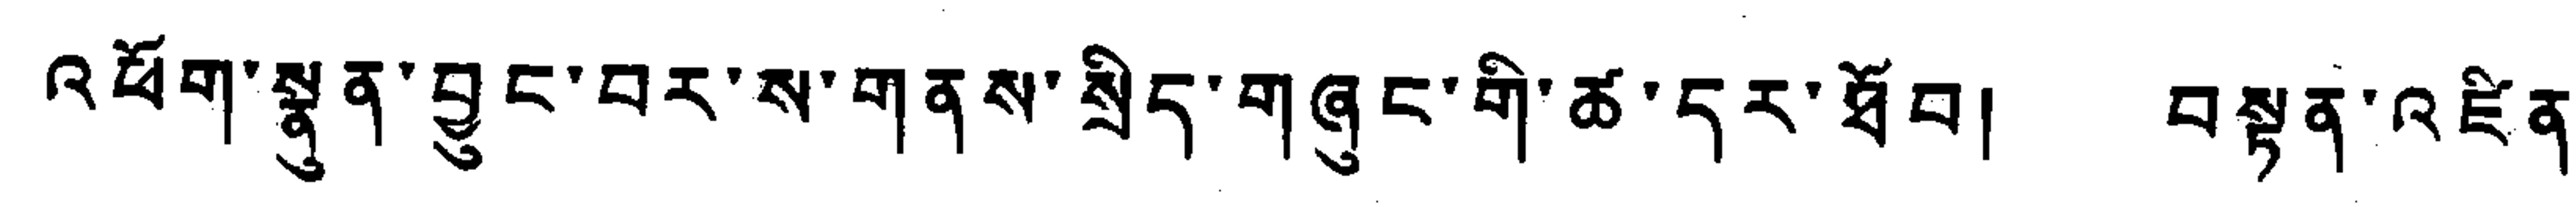འཕྲོག་སྣུན་བྱུང་བར་ས་གནས་སྲིད་གཞུང་གི་ཚ་དར་ཐོབ། བསྟན་འཛིན་
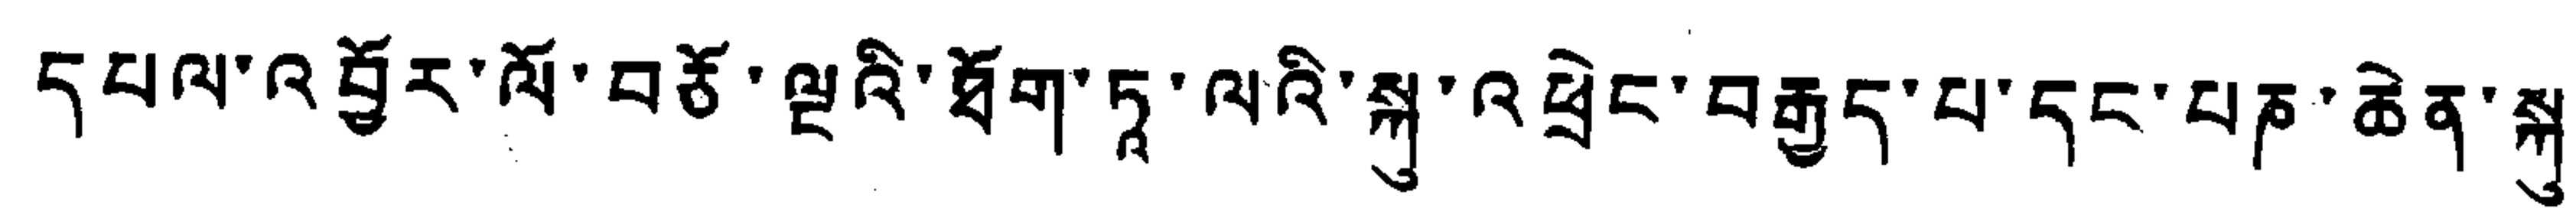དཔལ་འབྱོར་ལོ་བཅོ་ལྔའི་ཐོག་ཏཱ་ལའི་སྐུ་འཕྲེང་བརྒྱད་པ་དང་པཎ་ཆེན་སྐུ་
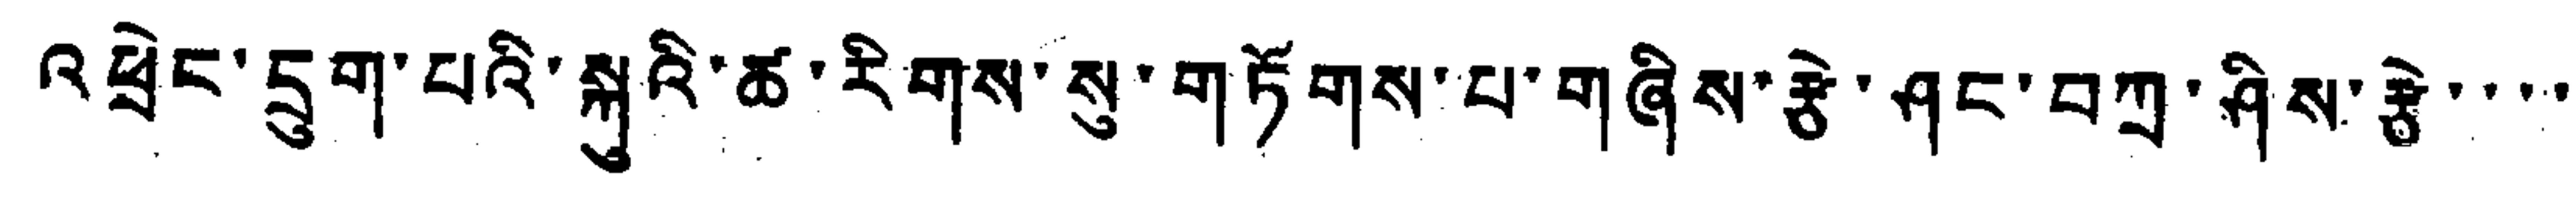འཕྲེང་དྲུག་པའི་སྐུའི་ཚ་རིགས་སུ་གཏོགས་པ་གཞིས་རྩེ་ཤང་བཀྲ་ཤིས་རྩེ་་་་
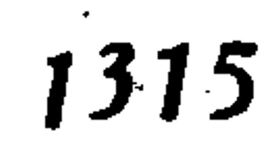1315
